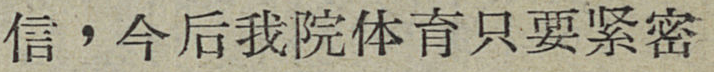信，今后我院体育只要紧密
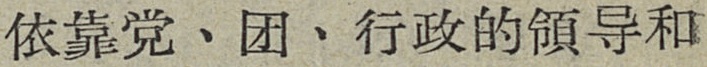依靠党、团、行政的領导和
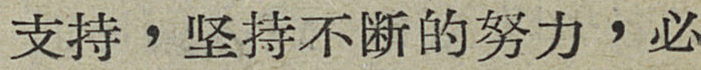支持，坚持不断的努力，必
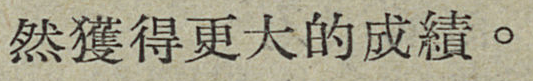然獲得更大的成績。
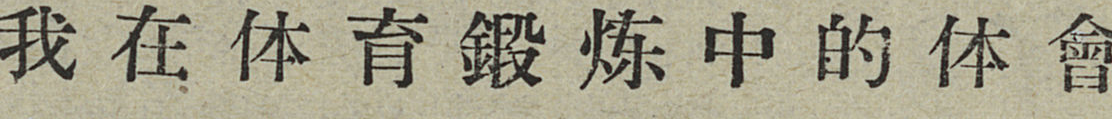我在体育鍛炼中的体會
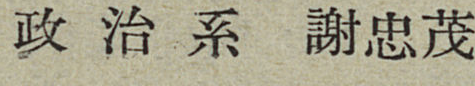政治系 謝忠茂
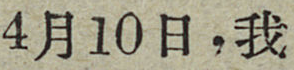4月10日，我
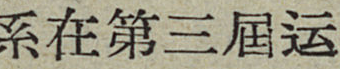系在第三屆运
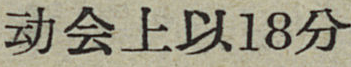动会上以18分
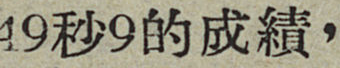19秒9的成績，
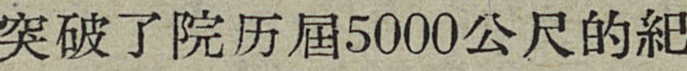突破了院历屆5000公尺的紀
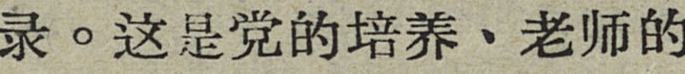录。这是党的培养、老师的
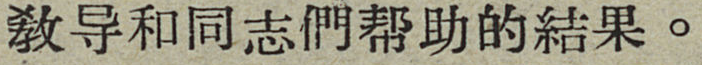敎导和同志們帮助的結果。
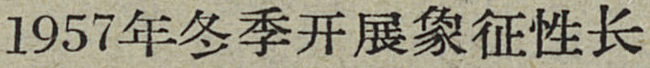1957年冬季开展象征性长
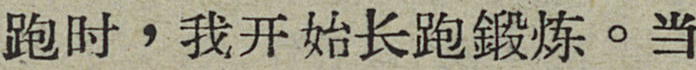跑时，我开始长跑鍛炼。当
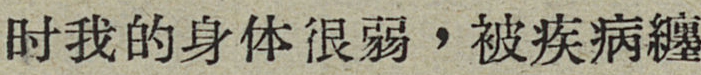时我的身体很弱，被疾病纏
